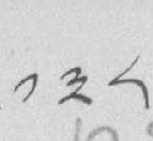༡༣༨
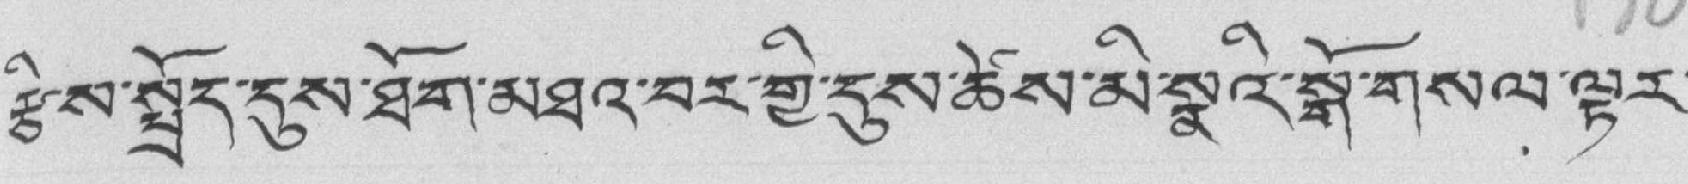རྩིས་སྤྲོད་དུས་ཐོག་མཐའ་བར་གྱི་དུས་ཚེས་མི་སྣའི་སྒོ་གསལ་ལྟར་
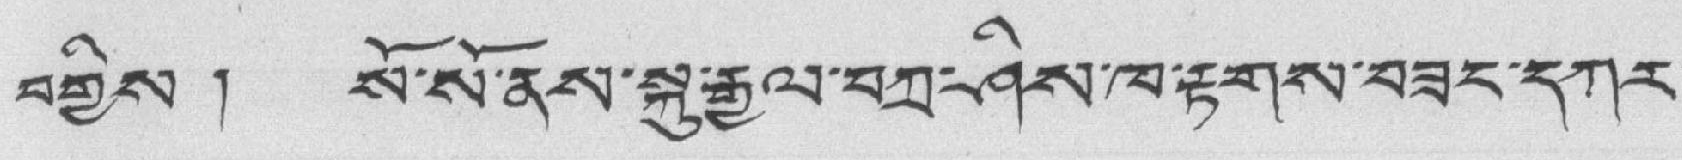བགྱིས ། སོ་སོ་ནས་སྐུ་རྒྱལ་བཀྲ་ཤིས་ཁ་རྟགས་བཟང་དཀར་
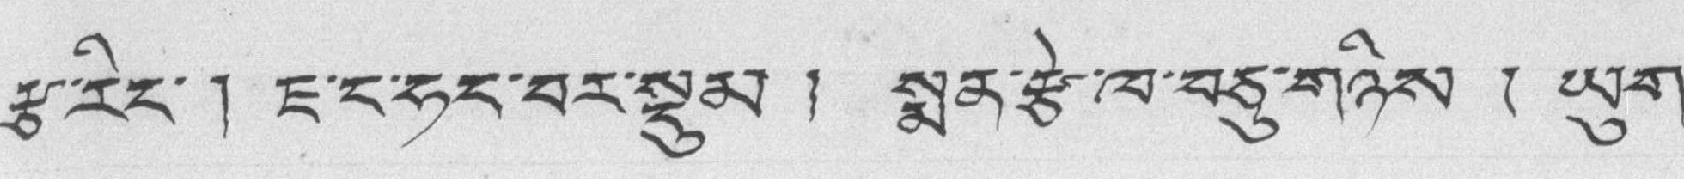རྩ་རིང་ ། ཇ་ང་ཧང་བར་སྡུམ ། སྨན་རྩེ་ཁ་བཅུ་གཉིས ། ཡུག་
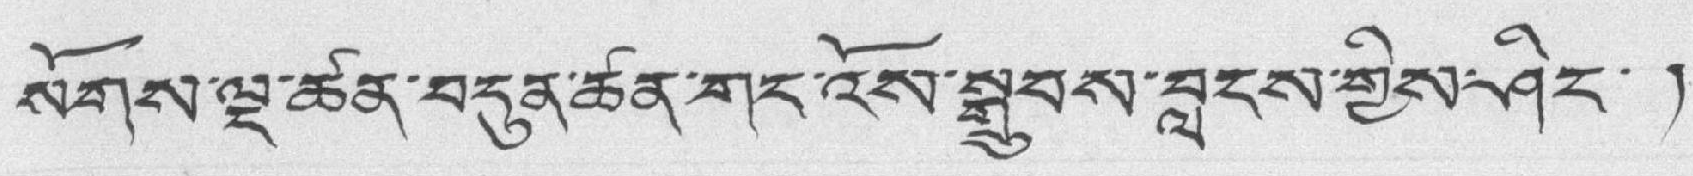སོགས་ལྔ་ཚན་བདུན་ཚན་གང་འོས་སྒྲུབས་བླངས་གྱིས་ཤིང་ །
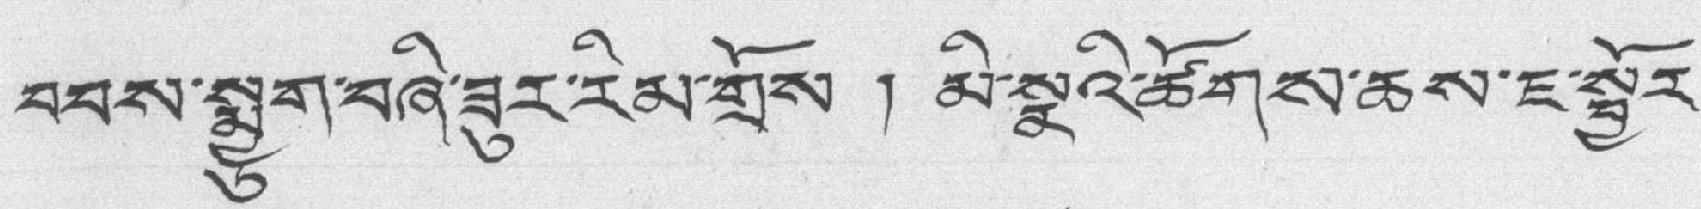བབས་སྨྱུག་བཞི་ཟུར་རིམ་གྲོས ། མི་སྣའི་ཚོགས་ཆས་ཇ་སྦྱོར་
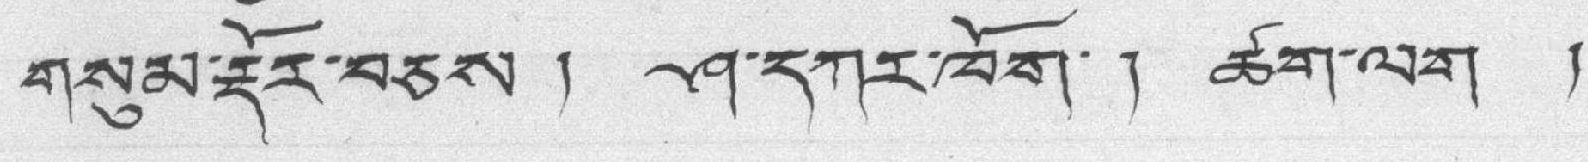གསུམ་རྡོར་བཅས ། ཤ་དཀར་ཁོག་ ། ཚག་ལག །
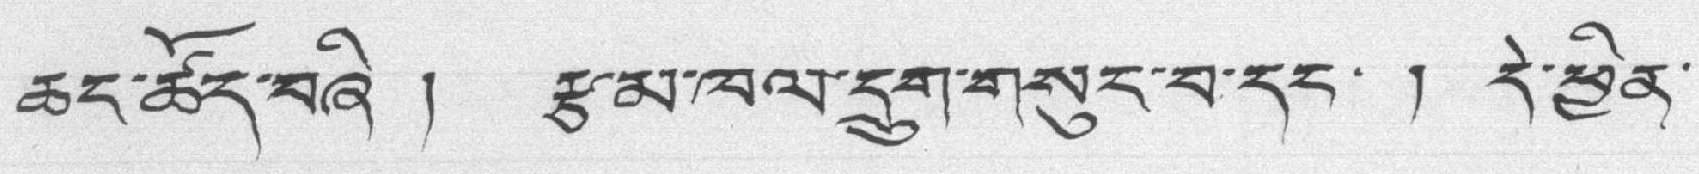ཆང་ཚོད་བཞི ། རྩ་མ་ཁལ་དྲུག་གསུང་བ་དང་ ། དེ་ཕྱིན་
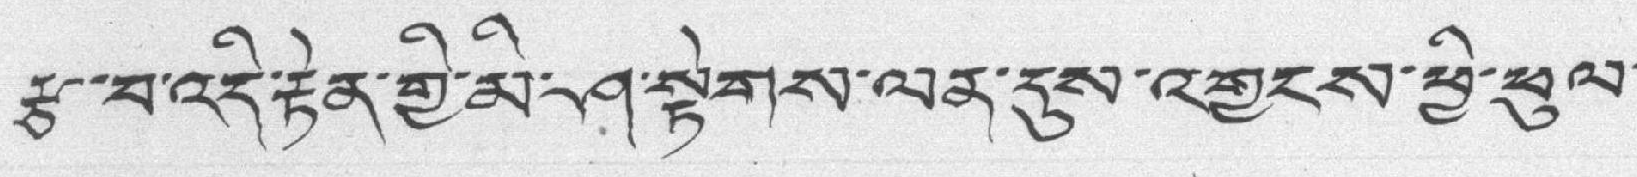རྩ་་བ་འདི་རྟེན་གྱི་མི་ཤ་སྟེགས་ལན་དུས་འགྱངས་ཕྱི་ཕུལ་
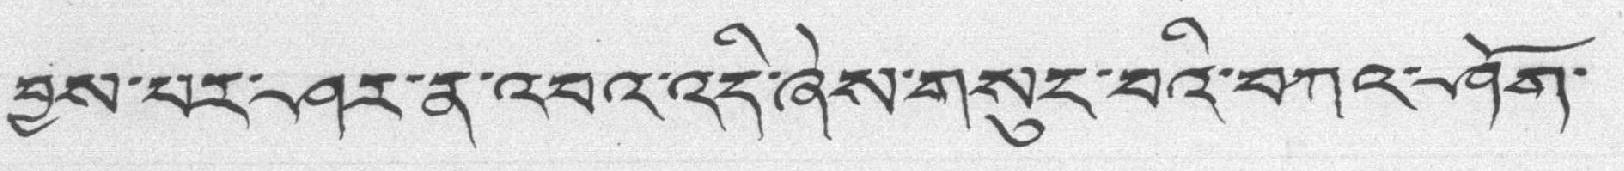བྱས་པར་ཤར་ན་འབའ་འདི་ཞེས་གསུང་བའི་བཀའ་ཤོག་
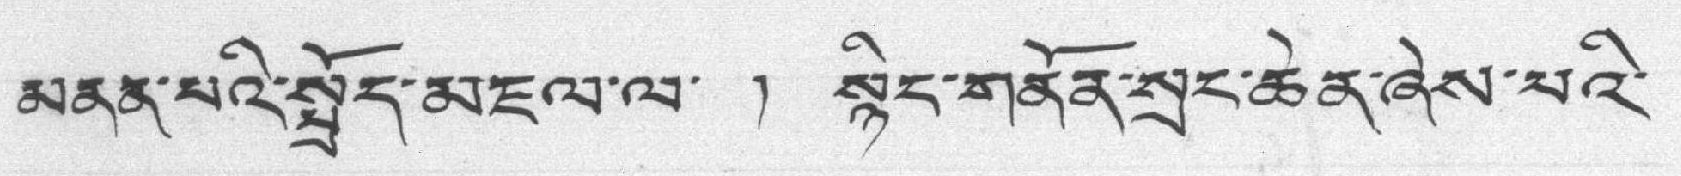མནན་པའི་སྤྲོད་མཇལ་ལ་ ། སྙིང་གནོན་སྲང་ཆེན་ཞེས་པའི་
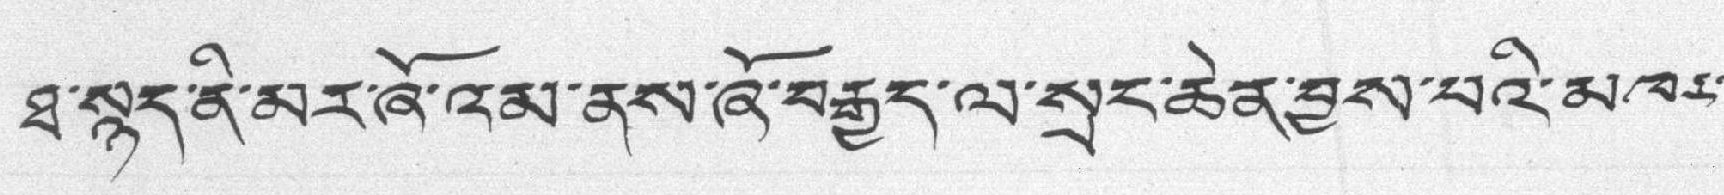ཐ་སྙད་ནི་མར་ཞོ་འམ་ནས་ཞོ་བརྒྱད་ལ་སྲང་ཆེན་བྱས་པའི་མཁར་
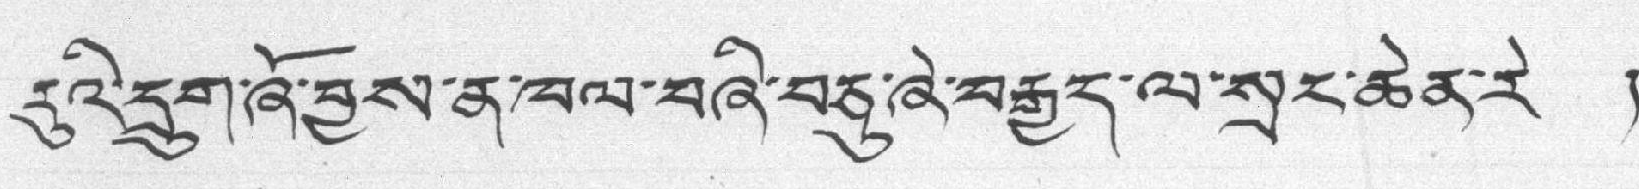རུའི་དྲུག་ཞོ་བྱས་ན་ཁལ་བཞི་བཅུ་ཞེ་བརྒྱད་ལ་སྲང་ཆེན་རེ །
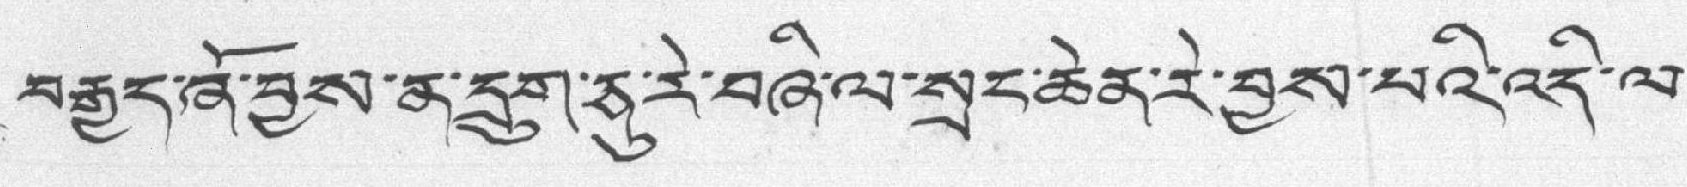བརྒྱད་ཞོ་བྱས་ན་དྲུག་ཅུ་རེ་བཞི་ལ་སྲང་ཆེན་རེ་བྱས་པའི་འདི་ལ་
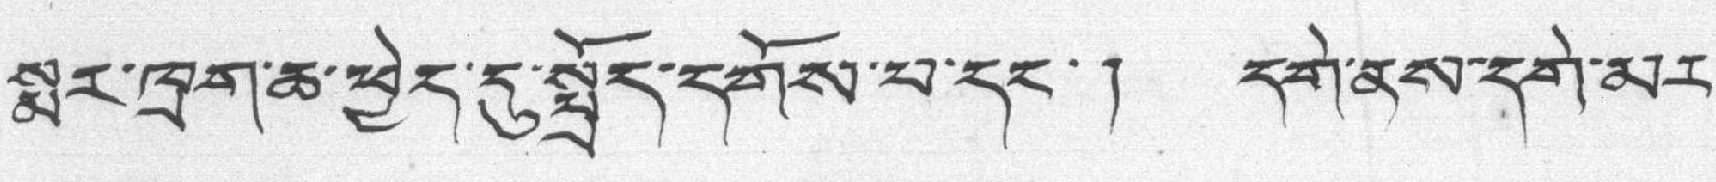སྨར་ཁྲག་ཆ་ཕྱེད་དུ་སྤྲོད་དགོས་པ་དང་། དགེ་ནས་དགེ་མར་
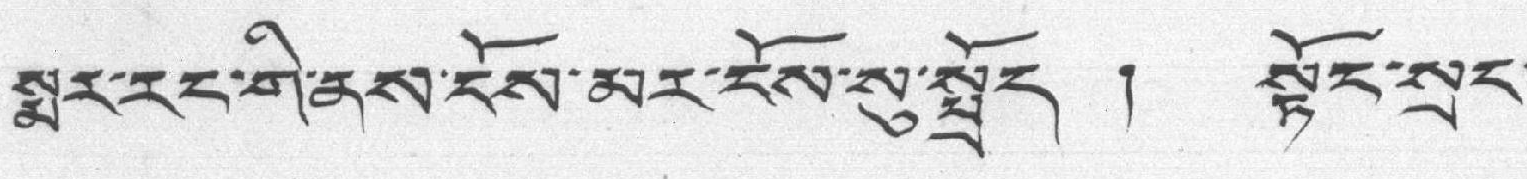སྨར་རང་གི་ནས་ངོས་མར་ངོས་སུ་སྤྲོད ། སྟོང་སྲང་
